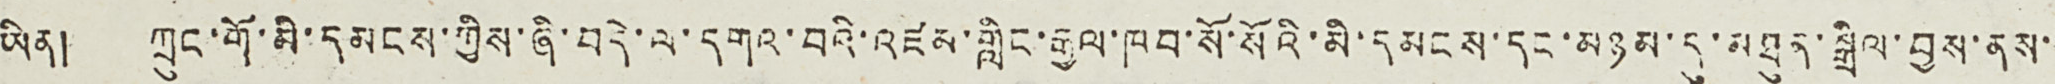ཡིན། ཀྲུང་གོ་མི་དམངས་ཀྱིས་ཞི་བདེ་ལ་དགའ་བའི་འཛམ་གླིང་རྒྱལ་ཁབ་སོ་སོའི་མི་དམངས་དང་མཉམ་དུ་མཐུན་སྒྲིལ་བྱས་ནས་་
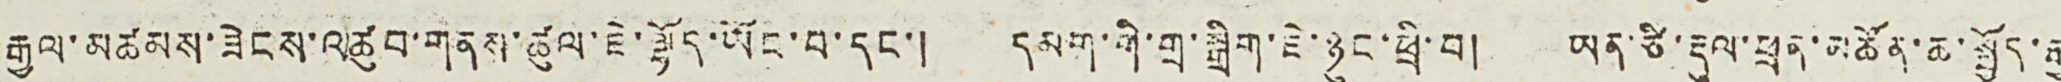རྒྱལ་མཚམས་ཟེངས་འཚུབ་གནས་ཚུལ་ཇེ་ལྷོད་ཡོང་བ་དང་། དམག་གི་གྲ་སྒྲིག་ཇེ་ཉུང་ཕྲི་བ། ཡན་ཙི་རྡུལ་ཕྲན་མཚོན་ཆ་སྤྱོད་རྒྱུ
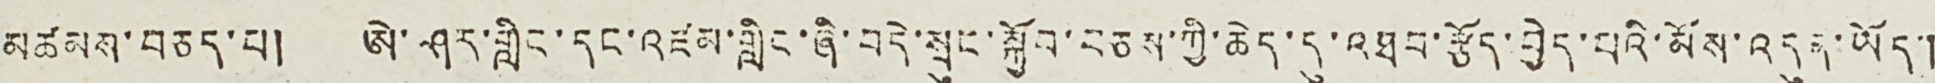མཚམས་བཅད་པ། ཨེ་ཤར་གླིང་དང་འཛམ་གླིང་ཞི་བདེ་སྲུང་སྐྱོབ་བཅས་ཀྱི་ཆེད་དུ་འཐབ་རྩོད་བྱེད་པའི་མོས་འདུན་ཡོད་།
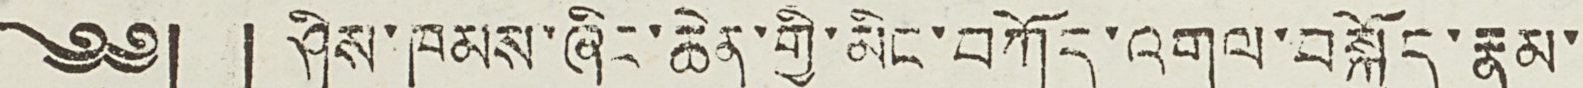༄༅། ། ཤིས་ཁམས་ཞིང་ཆེན་གྱི་མིང་བཀོད་འགུལ་བསྐྱོད་རྣམ་
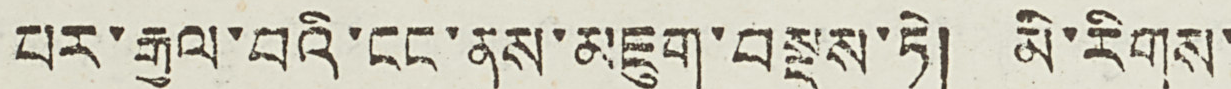པར་རྒུལ་བའི་ངང་ནས་མཇུག་བསྡུས་ཏེ། མི་རིགས་
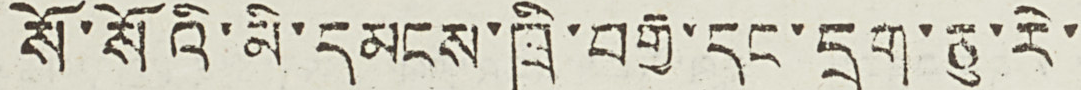སོ་སོའི་མི་དམངས་ཁྲི་བརྒྱ་དང་དྲུག་ཅུ་རེ་
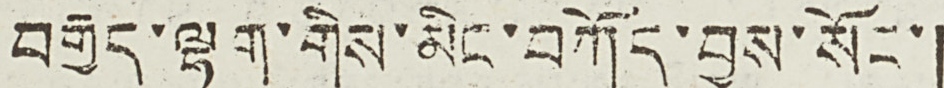བརྒྱད་ལྷག་གིས་མིང་བཀོད་བྱས་སོང་།
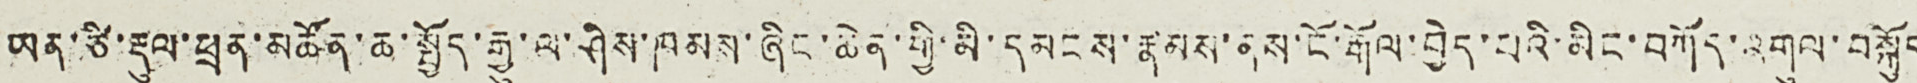ཡན་ཙི་རྡུལ་ཕྲན་མཚོན་ཆ་སྤྱོད་རྒྱུ་ལ་ཤེས་ཁམས་ཞིང་ཆེན་གྱི་མི་དམངས་རྣམས་ནས་ངོ་རྒོལ་བྱེད་པའི་མིང་བཀོད་འགུལ་བསྐྱོད
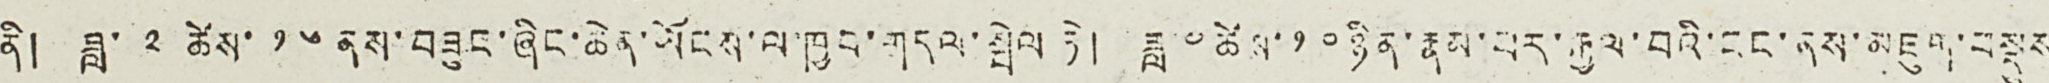ནི། ཟླ་ ༢ ཚེས་ ༡༦ ནས་བཟུང་ཞིང་ཆེན་ཡོངས་ལ་ཁྱབ་གདལ་སྦེལ ཏེ། ཟླ་ ༤ ཚེས་ ༡༠ ཉིན་རྣམ་པར་རྒྱལ་བའི་ངང་ནས་མཇུག་བསྡུས
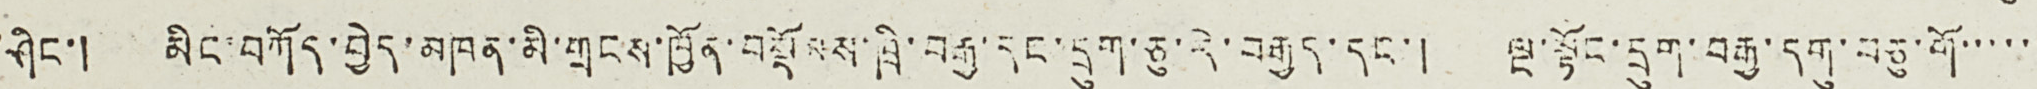་ཤིང་། མིང་བཀོད་བྱེད་མཁན་མི་གྲངས་མི་གྲངས་ཁྱོན་བསྡོམས་ཁྲི་བརྒྱ་དང་དྲུག་ཅུ་རེ་བརྒྱད་དང་། ལྔ་སྟོང་དྲུག་བརྒྱ་དགུ་བཅུ་གོ་་་་་་
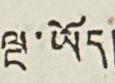ལྔ་ཡོད།
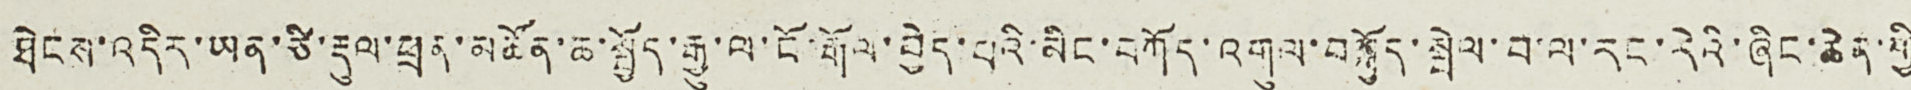ཐེངས་འདིར་ཡན་ཙི་རྡུལ་ཕྲན་མཚོན་ཆ་སྤྱོད་རྒྱུ་ལ་ངོ་རྒོལ་བྱེད་པའི་མིང་བཀོད་འགུལ་བསྐྱོད་སྤེལ་བ་ལ་རང་རེའི་ཞིང་ཆེན་གྱི
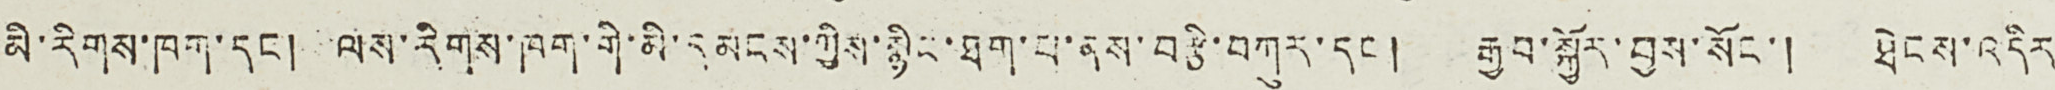མི་རིགས་ཁག་དང ། ལས་རིགས་ཁག་གི་མི་དམངས་ཀྱིས་སྙིང་ཐག་པ་ནས་བརྩི་བཀུར་དང ། རྒྱབ་སྐྱོར་བྱས་སོང་། ཐེངས་འདིར
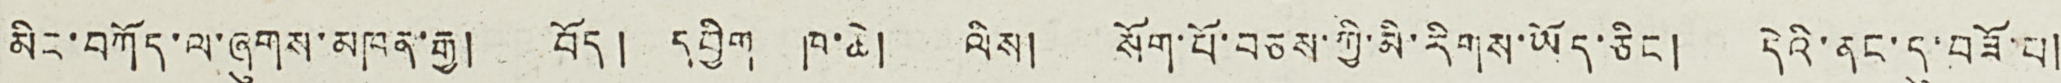མིང་བཀོད་ལ་ཞུགས་མཁན་རྒྱུ། བོད། དབྱིག ཁ་ཆེ། ལིས། སོག་པོ་བཅས་ཀྱི་མི་རིགས་ཡོད་ཅིང ། དེའི་ནང་དུ་བཟོ་པ།
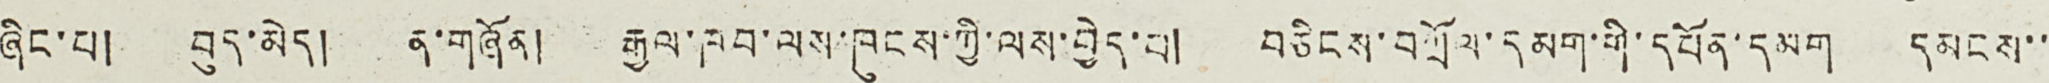ཞིང་པ། བུད་མེད། ན་གཞོན། རྒྱལ་ཁབ་ལས་ཁུངས་ཀྱི་ལས་བྱེད་པ། བཅིངས་བཀྲོལ་དམག་གི་དཔོན་དམག དམངས་་
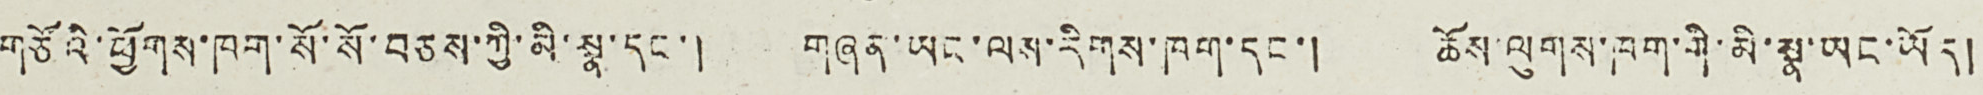གཙོའི་ཕྱོགས་ཁག་སོ་སོ་བཅས་ཀྱི་མི་སྣ་དང་། གཞན་ཡང་ལས་རིགས་ཁག་དང་། ཆོས་ལུགས་ཁག་གི་མི་སྣ་ཡང་ཡོད།
